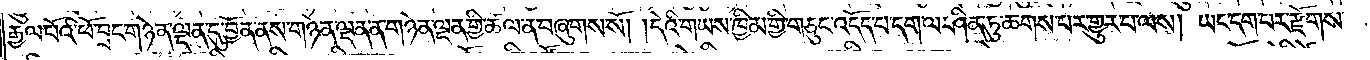རྒྱལ་པོའི་ཕོ་བྲང་གཉེན་ལྡན་དུ་བྱོན་ནས་གཉེན་ལྡན་ན་གཉེན་ལྡན་གྱི་ཚལ་ན་བཞུགས་སོ། །དེའི་གཡས་ཁྱིམ་གྱི་གཅུང་འདོད་པ་དག་ལ་ཤིན་ཏུ་ཆགས་པར་གྱུར་པ་ལས། ཡང་དག་པར་རྫོགས་
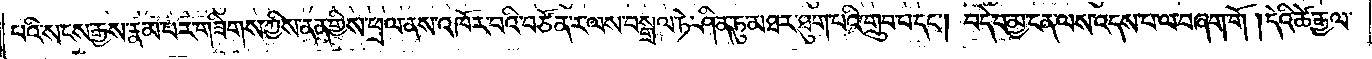པའི་སངས་རྒྱས་རྣམ་པར་གཟིགས་ཀྱིས་ནན་གྱིས་ཕྲལ་ནས་འཁོར་བའི་བཙོན་ར་ལས་བསྒྲལ་ཏེ་ཤིན་ཏུ་མཐར་ཐུག་པའི་གྲུབ་པ་དང༌། བདེ་བ་མྱ་ངན་ལས་འདས་པ་ལ་བཞག་གོ །དེའི་ཚེ་རྒྱལ་
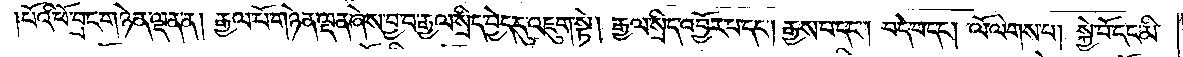པོའི་ཕོ་བྲང་གཉེན་ལྡན་ན། རྒྱལ་པོ་གཉེན་ལྡན་ཞེས་བྱ་བ་རྒྱལ་སྲིད་བྱེད་དུ་འཇུག་སྟེ། རྒྱལ་སྲིད་འབྱོར་བ་དང༌། རྒྱས་པ་དང༌། བདེ་བ་དང༌། ལོ་ལེགས་པ། སྐྱེ་བོ་དང་མི་
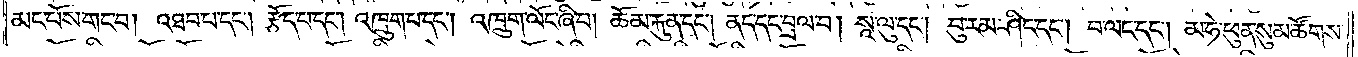མང་པོས་གང་བ། འཐབ་པ་དང༌། རྩོད་པ་དང༌། འཁྲུག་པ་དང༌། འཁྲུག་ལོང་ཞི་བ། ཆོམ་རྐུན་དང༌། ནད་དང་བྲལ་བ། སཱ་ལུ་དང༌། བུ་རམ་ཤིང་དང༌། བ་ལང་དང༌། མ་ཧེ་ཕུན་སུམ་ཚོགས་
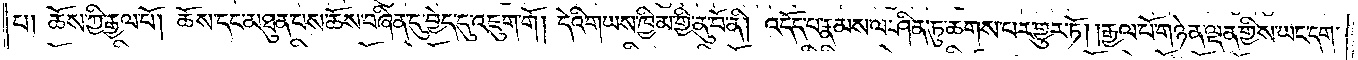པ། ཆོས་ཀྱི་རྒྱལ་པོ། ཆོས་དང་མཐུན་པས་ཆོས་བཞིན་དུ་བྱེད་དུ་འཇུག་གོ །དེའི་གཡས་ཁྱིམ་གྱི་ནུ་བོ་ནི། འདོད་པ་རྣམས་ལ་ཤིན་ཏུ་ཆགས་པར་གྱུར་ཏོ། །རྒྱལ་པོ་གཉེན་ལྡན་གྱིས་ཡང་དག་
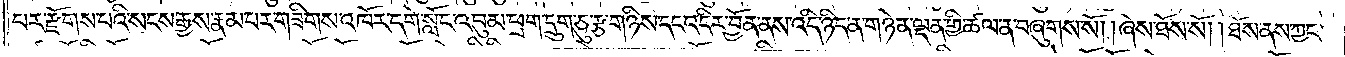པར་རྫོགས་པའི་སངས་རྒྱས་རྣམ་པར་གཟིགས་འཁོར་དགེ་སློང་འབུམ་ཕྲག་དྲུག་ཅུ་རྩ་གཉིས་དང་འདིར་བྱོན་ནས་འདི་ཉིད་ན་གཉེན་ལྡན་གྱི་ཚལ་ན་བཞུགས་སོ། །ཞེས་ཐོས་སོ། །ཐོས་ནས་ཀྱང་
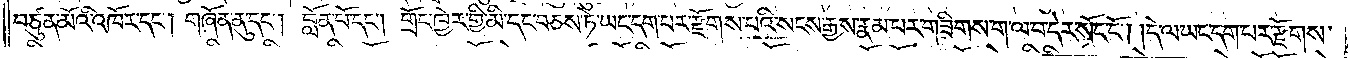བཙུན་མོའི་འཁོར་དང༌། གཞོན་ནུ་དང༌། བློན་པོ་དང༌། གྲོང་ཁྱེར་གྱི་མི་དང་བཅས་ཏེ་ཡང་དག་པར་རྫོགས་པའི་སངས་རྒྱས་རྣམ་པར་གཟིགས་ག་ལ་བ་དེར་སོང་ངོ༌། །དེ་ལ་ཡང་དག་པར་རྫོགས་
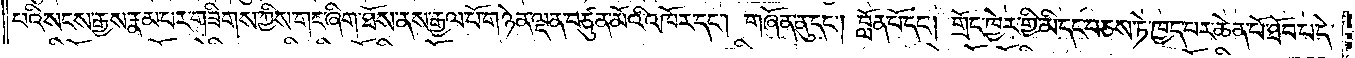པའི་སངས་རྒྱས་རྣམ་པར་གཟིགས་ཀྱིས་གང་ཞིག་ཐོས་ནས་རྒྱལ་པོ་གཉེན་ལྡན་བཙུན་པོའི་འཁོར་དང༌། གཞོན་ནུ་དང༌། བློན་པོ་དང༌། གྲོང་ཁྱེར་གྱི་མི་དང་བཅས་ཏེ་ཁྱད་པར་ཆེན་པོ་ཐོབ་པ་དེ་
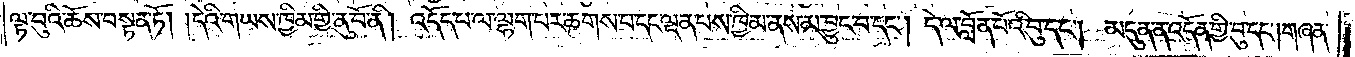ལྟ་བུའི་ཆོས་བསྟན་ཏོ། །དེའི་གཡས་ཁྱིམ་གྱི་ནུ་བོ་ནི། འདོད་པ་ལ་ལྷག་པར་ཆགས་པ་དང་ལྡན་པས་ཁྱིམ་ནས་མ་བྱུང་བ་དང༌། དེ་ལ་བློན་པོའི་བུ་དང༌། མདུན་ན་འདོན་གྱི་བུ་དང༌། གཞན་
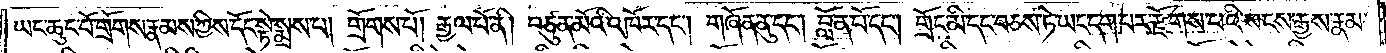ཡང་ཆུང་པོ་གྲོགས་རྣམས་ཀྱིས་དོང་སྟེ་སྨྲས་པ། གྲོགས་པོ། རྒྱལ་པོ་ནི། བཙུན་མོའི་འཁོར་དང༌། གཞོན་ནུ་དང༌། བློན་པོ་དང༌། གྲོང་མི་དང་བཅས་ཏེ་ཡང་དག་པར་རྫོགས་པའི་སངས་རྒྱས་རྣམས་
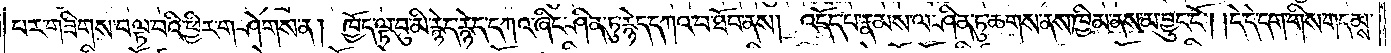པར་གཟིགས་བལྟ་བའི་ཕྱིར་གཤེགས་ན། ཁྱོད་ལྟ་བུ་མི་རྙེད་རྙེད་དཀའ་ཞིང་ཤིན་ཏུ་རྙེད་དཀའ་བ་ཐོབ་ནས། འདོད་པ་རྣམས་ལ་ཤིན་ཏུ་ཆགས་ནས་ཁྱིམ་ནས་མ་བྱུང་ངོ༌། །དེ་དེ་དག་གིས་གདམས་
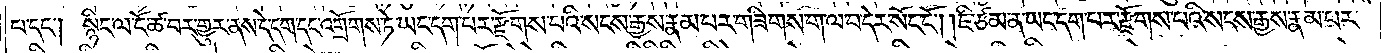པ་དང༌། སྙིང་ལ་ངོ་ཚ་བར་གྱུར་ནས་དེ་དག་དང་འགྲོགས་ཏེ་ཡང་དག་པར་རྫོགས་པའི་སངས་རྒྱས་རྣམ་པར་གཟིགས་ག་ལ་བ་དེར་སོང་ངོ༌། །ཇི་ཙམ་ན་ཡང་དག་པར་རྫོགས་པའི་སངས་རྒྱས་རྣམ་པར་
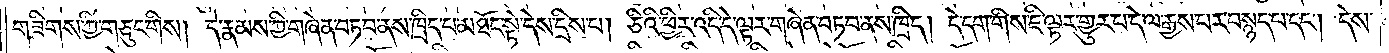གཟིགས་ཀྱི་གཅུང་གིས། དེ་རྣམས་ཀྱི་གཞེན་བཏབ་ནས་ཁྲིད་པ་མཐོང་སྟེ་དེས་དྲིས་པ། ཅིའི་ཕྱིར་འདི་དེ་ལྟར་གཞེན་བཏབ་ནས་ཁྲིད། དེ་དག་གིས་ཇི་ལྟར་གྱུར་པ་དེ་ལ་རྒྱས་པར་བསྙད་པ་དང༌། དེས་
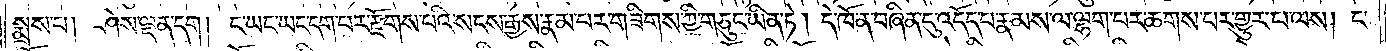སྨྲས་པ། ཤེས་ལྡན་དག །ང་ཡང་ཡང་དག་པར་རྫོགས་པའི་སངས་རྒྱས་རྣམ་པར་གཟིགས་ཀྱི་གཅུང་ཡིན་ཏེ། དེ་ཁོ་ན་བཞིན་དུ་འདོད་པ་རྣམས་ལ་ལྷག་པར་ཆགས་པར་གྱུར་པ་ལས། ང་
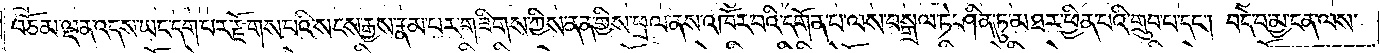བཅོམ་ལྡན་འདས་ཡང་དག་པར་རྫོགས་པའི་སངས་རྒྱས་རྣམ་པར་གཟིགས་ཀྱིས་ནན་གྱིས་ཕྲལ་ནས་འཁོར་བའི་དགོན་པ་ལས་བསྒྲལ་ཏེ་ཤིན་ཏུ་མཐར་ཕྱིན་པའི་གྲུབ་པ་དང༌། བདེ་བ་མྱ་ངན་ལས་
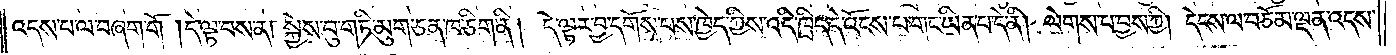འདས་པ་ལ་བཞག་གོ །དེ་ལྟ་བས་ན། སྐྱེས་བུ་གཏི་མུག་ཅན་ཁ་ཅིག་ནི། དེ་ལྟར་བྱ་དགོས་པས་ཁྱེད་ཀྱིས་འདི་ཁྲིད་དེ་འོངས་པ་གང་ཡིན་པ་དེ་ནི། ལེགས་པ་བྱས་ཀྱི། དེངས་ལ་བཅོམ་ལྡན་འདས་
